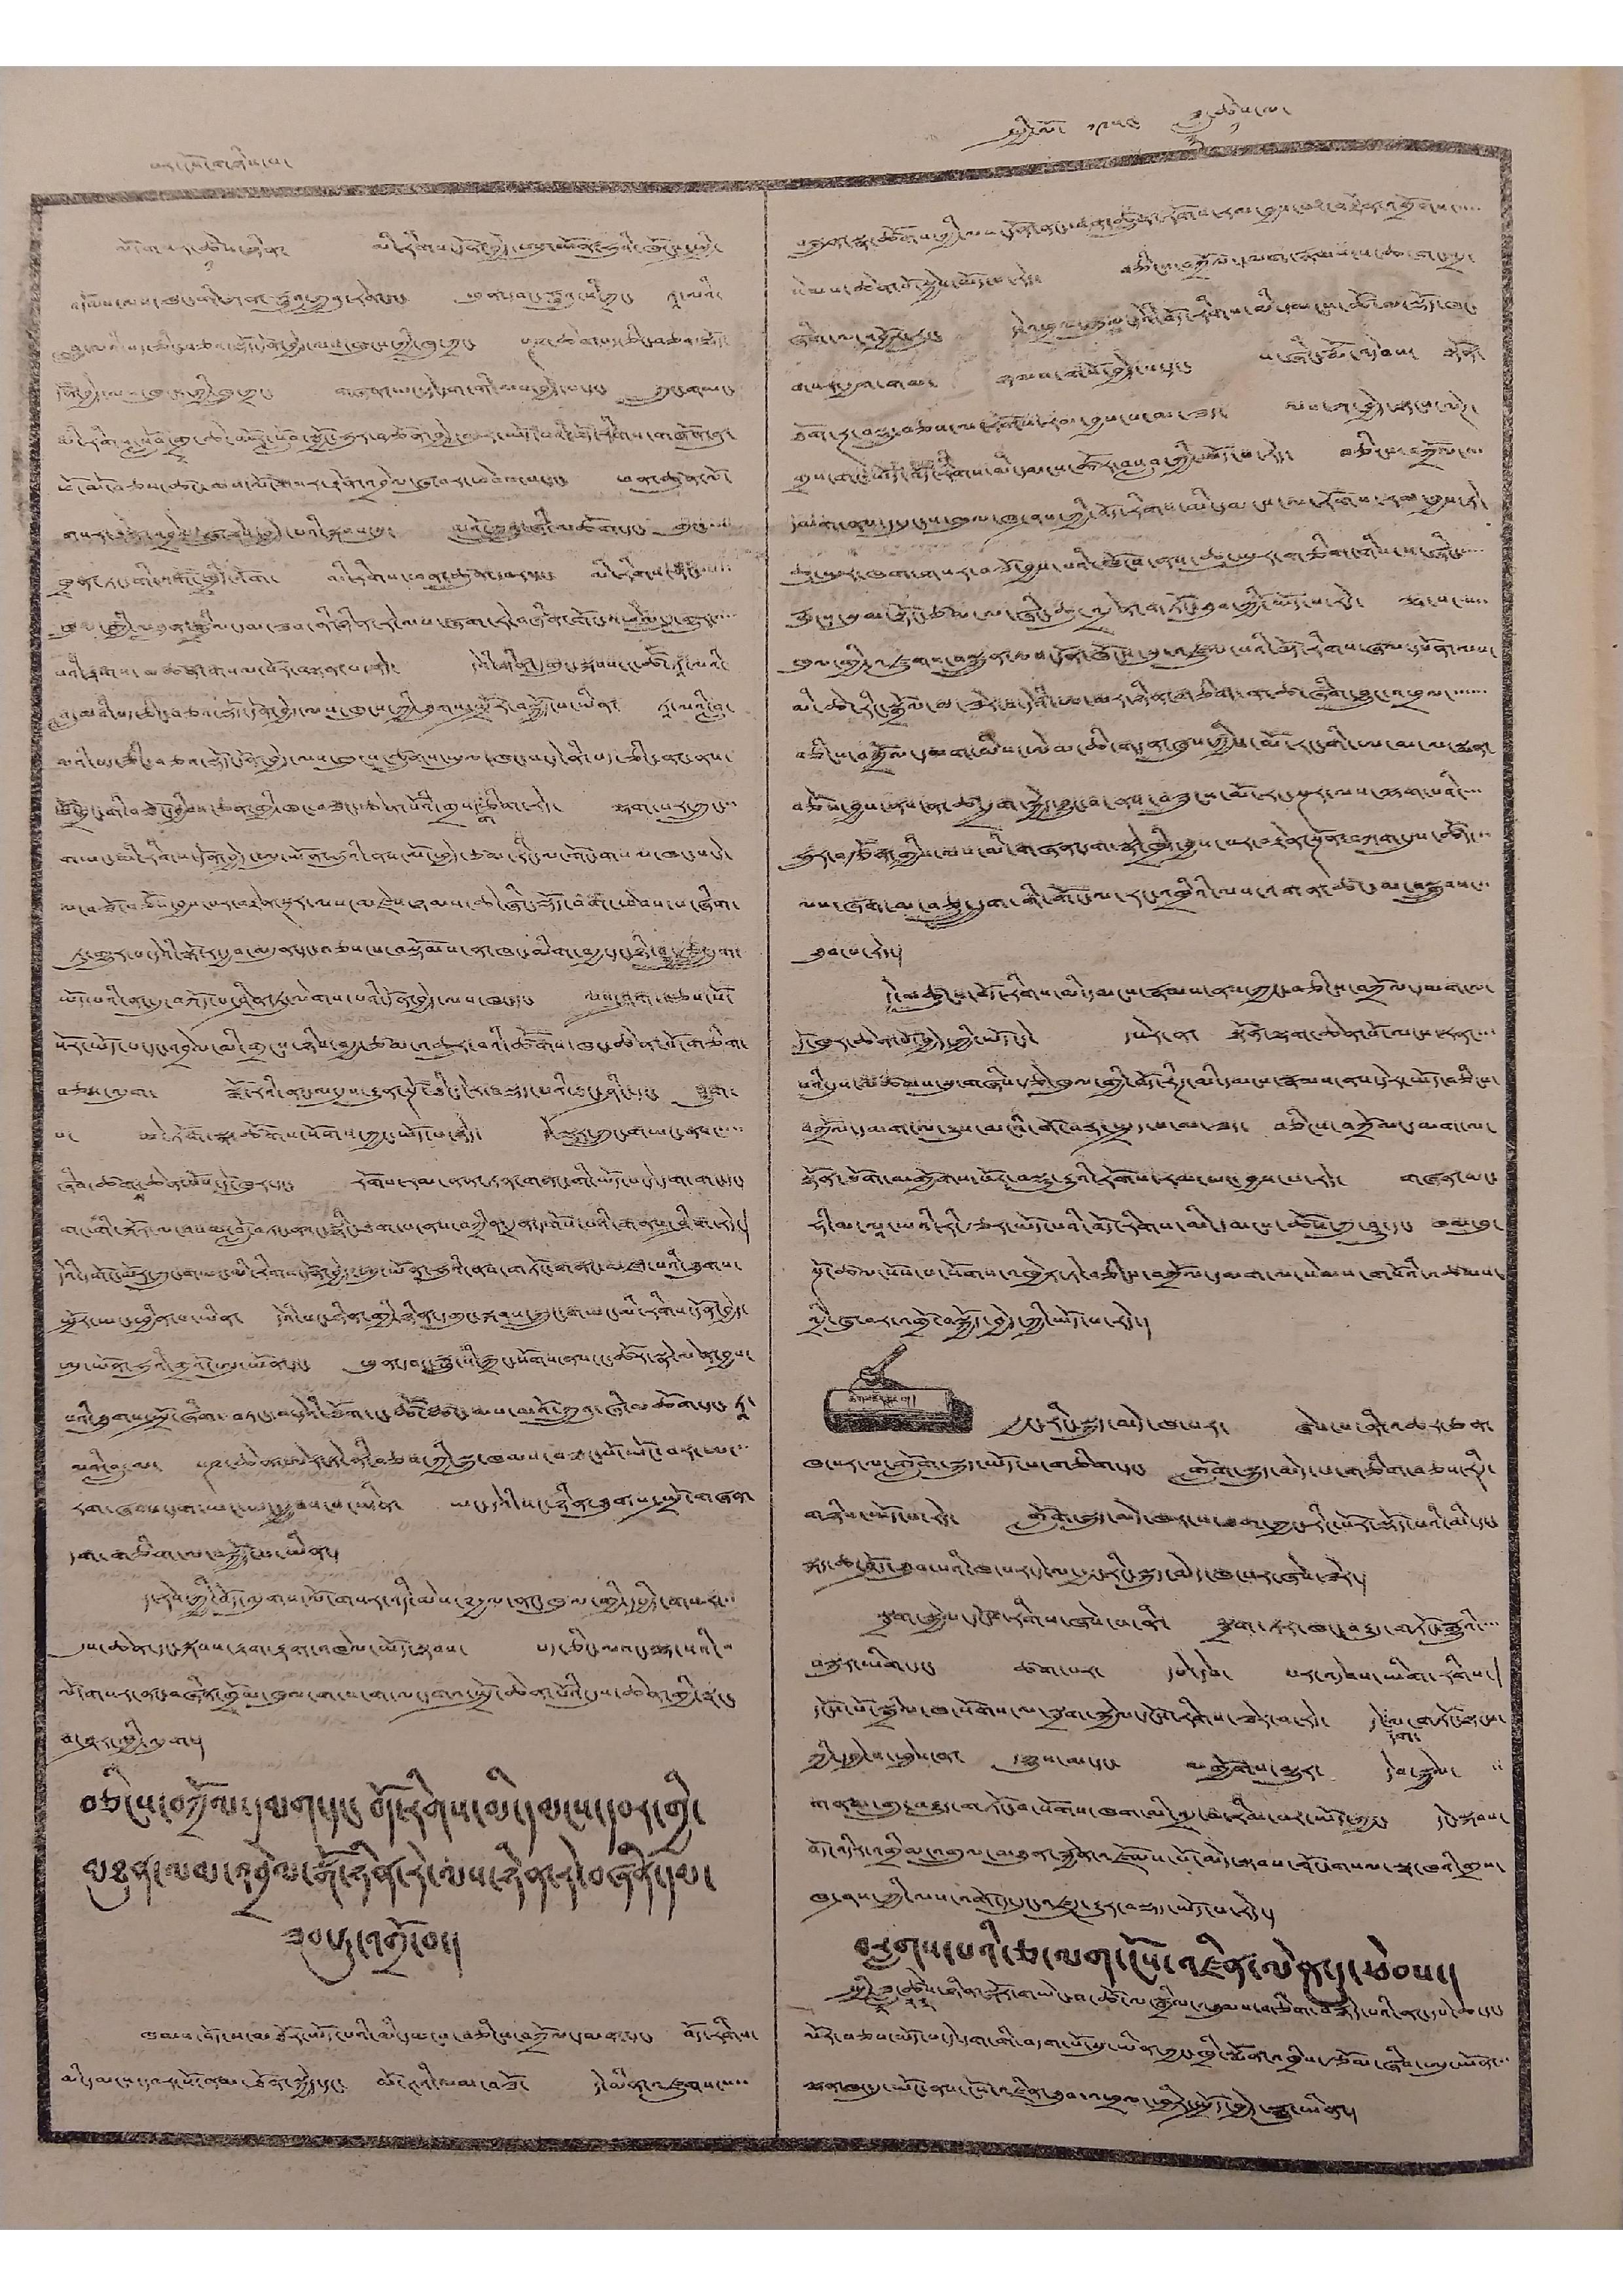པར་ངོས་གཉིས་པ་ སྤྱི་ལོ་ ༡༩༥༤ ཟླ་
༣
ཚེས་
༡
ལ་
ལོ་གསར་ཚེས་
༡
ཉིན་ མི་རིགས་དོན་བྱེད་ཨུ་ཡོན་ཧུའི་ཁོངས་སྤྱི་
འདོམས་ལས་ཁང་གི་ཀན་ཧྲུའུ་གྲུའུ་རེན་དང་ ཕུན་དབང་ཧྥུའུ་སི་ཀྲང་ ཏཱ་ལའི་
བླ་མའི་པད་ཅིང་བཅས་བཅའ་སྡོད་དོན་བྱེད་ལས་ཁུངས་ཀྱི་ཁྲུ་ཀྲང་ པཎ་ཆེན་པད་ཅིང་བཅའ་སྡོད་
དོན་བྱེད་ལས་ཁུངས་ཀྱི་ཁྲུ་ཀྲང་ གཞན་ཡང་དེ་དག་གི་ལས་བྱེད་པ་དང་ ཀྲུང་གཡང་
མི་རིགས་སློབ་གྲྭ་ཆེ་མོར་སློབ་སྦྱོང་ཧུར་བརྩོན་བྱེད་འབུར་ཡོད་པའི་བོད་རིགས་གཟོནན་ནུ་
ཕོ་མོ་བཅས་ཚང་མས་ལོ་གསར་རྟེན་འབྲེལ་ཞུ་བར་ཕེབས་པ་དང་ ཕན་ཚུན་ལོ་
གསར་རྟེན་འབྲེལ་ཞུ་རེས་བྱེད་པའི་སྐབས་སུ་ མའོ་ཀྲུའུ་ཞི་མཆོག་དང་ གུང་་་་་
ཁྲན་ཏང་གི་འགོ་ཁྲིད་འོག་ མི་རིགས་ཕན་ཚུན་དབར་དང་ མི་རིགས་ནང་་་་་་
ཁུལ་གྱི་མཐུན་སྒྲིལ་དམ་ཟབ་ནི་ཉིན་རེ་ལས་ཞག་རེ་བཞིན་གོང་འཕེལ་དུ་གྱུར་་་་་
པའི་རྟགས་མཚན་གསལ་པོར་བསྟན་པ་རེད་ དེའི་ཉིན་དགུང་སྐབས་ང་ཚོ་ཏཱ་ལའི་
བླ་མའི་པད་ཅིང་བཅའ་སྡོད་དོན་བྱེད་ལས་ཁུངས་ཀྱི་ཐུགས་སྤྲོར་བསྐྱོད་པ་ཡིན་ ཏཱ་ལའི་བླ་
མའི་པད་ཅིང་བཅའ་སྡོད་དོན་བྱེད་ལས་ཁུངས་ཚུགས་ཡུལ་ཁང་པ་དེ་ནི་པད་ཅིང་ནང་ནས་
ཕོ་བྲང་གི་བཟོ་དབྱིབས་ཅན་གྱི་ཁང་བཟང་ཆེན་པོའི་གྲས་
ག
ཅིག་རེད་ ལྷག་པར་ཀྲུང་་་
གཡང་མི་རིགས་དོན་བྱེད་ཨུ་ཡོན་ཧུའི་ནས་ལོ་བྱེད་ཙམ་རིང་ལ་གོང་གསལ་ཁང་པ་དེ་
ལང་བཟོ་བཅས་བྱས་པར་བརྟེན་སྔར་ལས་མཛེས་ཉམས་ཆེ་ཞིང་སྡོད་བག་ཕེབས་པ་ཞིག་
ཏུ་གྱུར་པ་དེའི་སྒོ་ར་རྒྱབ་མདུན་དང་བཅས་པ་བསྡོམས་ན་ཁང་མིག་བརྒྱ་དང་ཉི་ཤུ་རྩ་དྲུག་
ཡོད་པའི་ནང་དུ་བཀོད་པ་ཤིན་ཏུ་ལེགས་པའི་དོན་བྱེད་ལས་ཁང་དང་ ལས་ཤག་བཅས་སོ་
སོར་ཡོད་པ་དང་འབྲེལ་མི་གྲངས་ཉིས་བརྒྱ་ཙམ་འཆུར་བའི་ཚོགས་ཁང་ཆེན་པོ་གཅིག་
བཅས་འདུག་ སྒོ་རའི་ནང་ལ་དུས་རྒྱུན་སྔོ་ཐིང་ངེར་བསྡད་པའི་ཐང་ཤིང་དང་ ཤུག་
པ་ མེ་ཏོག་སྣ་ཚོགས་སོགས་ཀྱང་ཡོད་པ་རེད་ དེ་ལྟར་ཀྲུང་གཡང་ནས་་་་་
ཞིབ་ཚག
ས
་ཆེན་པོས་དོ་ཁུར་དང་ རོགས་རམ་ནན་ཏན་གནང་གི་ཡོད་པ་དེ་དག་གང་དང་
གང་གི་སྐོར་ལ་བསམ་བློ་བཏང་ནའང་སྙིང་ཐག་པ་ནས་བཀྲིན་དྲན་དགོས་པའི་གནས་ཤིག་ྲེད་།
དེའི་དགོང་མོར་ཀྲུང་གཡང་མི་རིགས་དོན་བྱེད་ཨུ་ཡོན་ཧུའི་ནས་གཏོང་གནང་མཛད་པའི་ཐུགས་
སྤྲོར་ཡང་ཕྱིན་པ་ཡིན་ དེའི་སང་ཉིན་གྱི་ཉིན་དགུང་སྐབས་ཀྲུང་གཡང་མི་རིགས་དོན་བྱེད་
ཨུ་ཡོན་ཧུའི་གྲའོ་ཨུ་ཡོན་དང་ ཕུན་དབང་ཧྥུ་སི་ཀྲང་སོགས་ནས་ང་ཚོར་སྣེ་ལེན་བྱས་
པའི་ཐུགས་སྤྲོ་ཞིག་བཏང་བ་དེའི་ཐོག་ང་ཚོ་ཚང་མས་མའོ་ཀྲུའུ་ཞི་མཆོག་ཕདང་ ཏཱ་
ལའི་བླ་མ་ པཎ་ཆེན་ཨེར་ཏེ་ནི་བཅས་ཀྱི་སྐུ་ཁམས་བཟང་པོ་ཡོང་བར་མ་་་
རག་ཞབས་དག་ཡང་མ་སྐྱབས་པ་ཡིན་ ཡང་དེའི་སང་ཉིན་ཐུགས་སྤྲོ་གཞན་
དག་གཅིག་ལ་བསྐྱོད་པ་ཡིན་།
ད་རེས་ཀྱི་བོད་ལུགས་ལོ་གསར་འདི་མེས་༸རྒྱལ་ནང་ཁུལ་གྱི་དཔྱིད་གསར་་་
དུས་ཆེན་དང་སྐབས་རྟག་རྟག་འཁེལ་ཡོད་སྟབས་ པད་ཅིང་ལའང་ལྷ་སའི་་
ལོ་གསར་ནང་བཞིན་ཁྲོམ་ཁུལ་ག་ས་ག་ལ་དགའ་སྤྲོ་ཆེན་པོའི་དུས་ཆེན་གྱི་སྣང་
བ་ཤར་གྱི་འདུག་།
བཅིངས་བཀྲོལ་དམག་དང་བོད་རིགས་མི་དམངས་དབར་གྱི་
མཐུན་ལམ་འབྲེལ་སྒོ་ཉིན་རེ་ལས་ཉིན་རེ་བཞིན་དམ་
ཟབ་ཏུ་འགྲོ་བ་།
ཁམས་བོད་ས་མཐོར་ཡོད་པའི་མི་དམངས་བཅིངས་བཀྲོལ་དམག་དང་ བོད་རིགས་
མི་དམངས་དབར་སོ་ནམ་ཐོན་སྐྱེད་དང་ མོ་ཊའི་ལམ་བཟོ་ དེ་མིན་འཛུགས་་་་་
བསྐྲུན་སྣ་ཚོགས་ཀྱི་ལས་དོན་ནང་ཕན་ཚུན་རོགས་རམ་བྱས་པ་བརྟེན་འགྲོགས་་་་་
སེམས་ཆེན་པོ་སྐྱེས་ཡོད་པ་རེད་ བཅིངས་བཀྲོལ་དམག་རྣམས་ས་ཆ་གང་འདྲ་
ཞིག་ལ་འབྱོར་རུང་ དེ་འཕྲལ་མགུལ་དེའི་བོད་རིགས་མི་དམངས་ཚོ་ལ་སྡོད་ཁང་
གསར་རྒྱག་གམ་ ནཡམས་གསོ་བྱེད་པ་དང་ ས་ཞིང་རྨོ་འདེབས་ སྟོན་
ཐོག་རྔ་བསྡུ་བཅས་ལ་རོགས་རམ་བྱས་པ་མ་ཟད་ ལས་ཀ་བྱེད་སྟངས་ལེཊ་
གྲས་གང་ཡོད་བོད་རིགས་མི་དམངས་ཚོར་བསླབ་ཀྱི་ཡོད་པ་རེད་ བཅིངས་བཀྲོལ་་་་
དམག་ནས་ད་དུང་ས་ཁུལ་ཁ་ཤས་ཀྱི་བོད་རིགས་མི་དམངས་ལ་རོགས་རམ་བྱས་ཏེ་
ཆུ་ཡུར་ཁག་གསར་བཟོ་བྱས་པའི་ཁོངས་ནས་ཆུ་ཡུར་གཅིག་གིས་ས་ཞིང་་་་་
རྨུངས་སུམ་སྟོང་ཙམ་ལ་ཞིང་ཆུ་འདྲེན་གཏོང་ཐུབ་ཀྱི་ཡོད་པ་རེད་ ཟམ་པ་་་་་་
ཁུལ་གྱི་འཛུགས་བསྐྲུན་ལས་དོན་ཁོངས་སུ་འཛུལ་པའི་བོད་རིགས་ཞལ་དཔོན་ལས་
མི་ཚེ་རིང་སྒྲོལ་མ་ཟེར་བ་དེའི་ཨ་མར་ཉིན་གཅིག་ན་ཚ་ཞིག་བྱུང་འཕྲl་་་་་་་
བཅིངས་བཀྲོལ་དམག་མིས་ཨེམ་ཆི་གདན་ཞུས་ཀྱིས་མོ་རང་གི་ཨ་མ་ལ་སྨན་
བཅོས་བྱས་ནས་ན་ཚ་དྲག་སྐྱེད་བྱུང་བ་ནས་བཟུངས་མོ་རང་སྔར་ལས་ལྷག་པའི་་་་
ཧྲུར་བརྩོན་གྱི་ལས་མི་གཞན་དག་སྣེ་ཁྲིད་བྱས་པར་བརྟེན་སྔོན་བཀག་དུས་ཚོད་་་
ལས་ཞག་མ་བཅུ་དྲུག་གི་གོང་ལ་རང་འཁྲིའི་ལས་འགན་ཚང་མ་བསྒྲུབས་་་
ཐུབ་པ་རེད་།
དེ་མཚུངས་བོད་རིགས་མི་དམངས་རྣམས་ནས་ཀྱང་བཅིངས་བཀྲོལ་དམག་ལ་
དོ་ཁུར་ཆེན་པོ་བྱེད་ཀྱི་ཡོད་པ་དེ་ དཔེར་ན་ སྟོན་ལྷག་ཆེན་པོ་ལངས་རན་་་་
པའི་དུས་མཚམས་སུ་གཞིས་རྩེ་ཁུལ་གྱི་བོད་རིཊ་མི་དམངས་རྣམས་ནས་དེར་ཡོད་བཅིངས་
བཀྲོལ་དམག་ལ་རྒྱུས་མངའི་གོ་བརྡ་སྤྲད་པ་མ་ཟད་ བཅིངས་བཀྲོལ་དམག་ལ་
སྟོནན་ཐོག་མགྱོགས་པོར་བསྡུ་རྒྱུའི་རོགས་རམ་ཡང་བྱས་པ་རེད་ གཞན་ཡང་
ཧི་མ་ལཱའི་རི་རྩར་ཡོད་པའི་བོད་རིགས་མི་དམངས་ཚོས་ཀུ་ཤུ་དང་ ཁམ་བུ་
སྔོ་ཚལ་སོས་པ་སོགས་འཁྱེར་ཏེ་བཅིངས་བཀྲོལ་དམག་ལ་སེམས་གསོའི་འཚམས་
འདྲི་ཞུ་བར་འགྲོ་བསྐྱོད་བྱེད་ཀྱི་ཡོད་པ་རེད་།
ཚིག་མཛོད་ཆུང་བ་
རྒྱང་རིང་སྐུད་མེད་ཁ་པར་ ཞེས་པ་ནི་འཆར་ཅན་
ཁ་པར་ལ་གློག་སྐུད་ཡོད་པ་གཅིག་དང་ གློག་སྐུད་མེད་པ་གཅིག་བཅས་རིཊ་
གཉིས་ཡོད་པ་རེད་ གློག་སྐུད་མེད་ཁར་ས་ཐག་ཀྱང་རིང་པོར་སྡོད་པའི་མི་དང་
སྐད་ཆ་ཤོས་ཐུབ་པའི་ཁ་པར་དེ་ལ་རྒྱང་རིང་སྐུད་མེད་ཁ་པར་ཞེས་ཟེར་།
སྦྲག་སྐྱེལ་དངོས་རིགས་ཞེས་པ་ནི་ སྦྲག་ཏར་ཁང་བརྒྱུད་གཏོང་རྒྱུའི་་་་
བསྐུར་ཡིག་དང་ ཚག་པར་ དཔེ་དེབ་ པར་འདེབས་ཡིག་རིགས་།
དངོས་པོ་སྒྲིལ་ཁ་སོགས་ལ་སྦྲག་སྐྱེལ་དངོས་རིགས་ཟེར་བ་རེད་ དེ་
དག་
ལ་གཏོང་ལྟང་
ཀྱི་དབྱེ་བ་ཕྱེས་ན་ དཀྱུས་མ་དང་ མགྱོགས་མྱུར་ དེབ་སྐྱེལ་
གནམ་གྲུ་བརྒྱུད་གཏོང་བ་སོགས་ཁག་མི་འདྲ་བ་རིམ་པར་ཡོད་ཀྱང་ དེང་སྐབས་
བོད་འདིར་འགྲིམ་འགྲུལ་མཐུན་རྐྱེན་འཛོམས་པོ་མེད་སྟབས་གོང་གསལ་སྣ་ཁའི་གྲས་
ཁ་ཤས་ཀྱི་ལས་འགོ་ད་དུང་འཛུཊ་རྒྱུར་བསྡད་ཡོད་པ་རེད་།
བརླགས་པའི་ཅ་ལག་ངོས་འཛིན་ལེན་དུ་ཕེབས་།
སྤྱི་ཟླ་
༢
ཚེས་
༢༨
ཉིན་སྐོར་གཡེང་བ་ཚོ་ལ་སྒྲིལ་འཐུམས་གཅིག་བརྙེད་པའི་ནང་དཔེ་ཆ་དང་
ལོར་བཅས་ཡོད་པ་དེ་དག་གི་བདག་པོ་སུ་ཡིན་ཀྱང་ཁྲི་སྨོན་འཁྲིས་རྩོམ་ཞིབ་ཨུ་ཡོན་་་
ལྷན་ཁང་དུ་ཡོང་ནས་ངོས་འཛིན་ཐུབ་འཕྲལ་ཕྱིར་སྤྲོད་བྱེད་རྒྱུ་ཡིན་།
